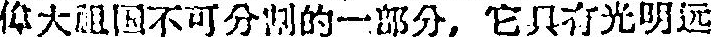偉大祖国不可分割的一部分，它具有光明远
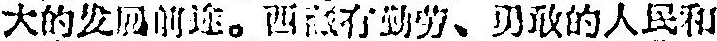大的发加前途。西藏有勤劳、勇敢的人民和
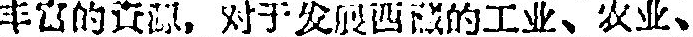丰富的資源，对于发展西藏的工业、农业、
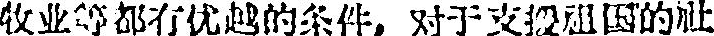牧业等都有优越的条件，对于支援祖因的社
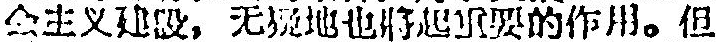会主义建設，无疑地也將起重要的作用。但
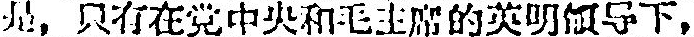是，只有在党中央和毛主席的英明領导下，
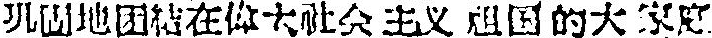巩固地团結在偉大社会主义祖国的大家庭
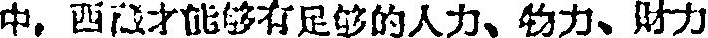中，西藏才能够有足够的人力、物力、財力
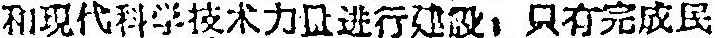和現代科学技术力且进行建設；只有完成民
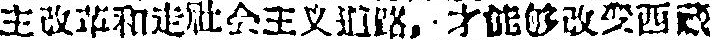主改革和走社会主义道路，才能够改变西藏
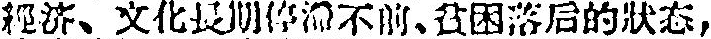經济、文化長期停滞不前、貧困落后的狀态，
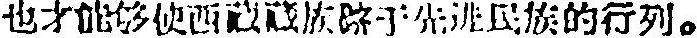也才能够使西藏藏族跻于先进民族的行列。
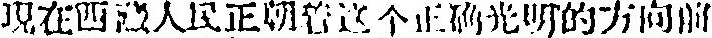現在西藏人民正朝着这个正确光明的方向前
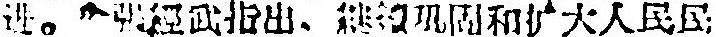进。 張經武指出、継續巩固和扩大人民民
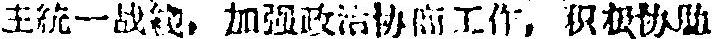主統一战綫，加強政治协商工作，积极协助
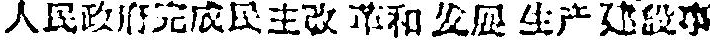人民政府完成民主改革和发展生产建設事
